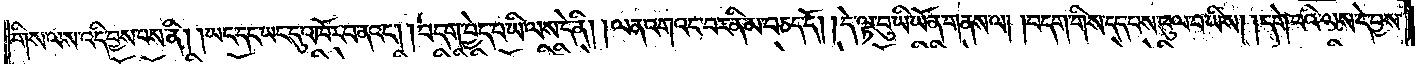གིས་ལས་འདི་བྱས་པས་ནི། །ཡང་དང་ཡང་དུ་འཁོར་བ་ནའང༌། །བདག་བྱེད་པ་ཡི་ལས་དེ་ནི། །ལན་འགའང་བར་ནི་མ་བཅད་དོ། །དེ་ལྟ་བུ་ཡི་ཡོན་གནས་ལ། །བདག་གིས་དད་པས་ཕུལ་བ་ཡིས། །དགེ་བའི་ལས་དེ་བྱས་
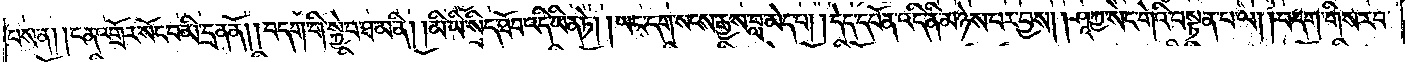པས་ན། །ངན་འགྲོར་སོང་བ་མི་དྲན་ནོ། །བདག་གི་སྐྱེ་བ་ཐ་མ་ནི། །མི་ཡི་སྲིད་ཐོབ་འདི་ཡིན་ཏེ། །ཡང་དག་སངས་རྒྱས་བླ་མེད་པ། །དེད་དཔོན་འདི་ནི་མཉེས་པར་བྱས། །ཤཱཀྱ་སེང་གེའི་བསྟན་པ་ལ། །བདག་གིས་རབ་
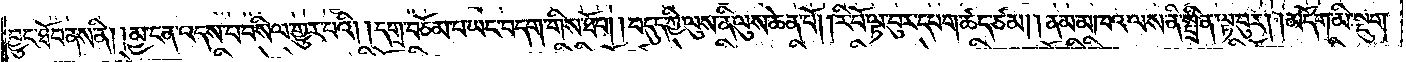བྱུང་ཐོབ་ནས་ནི། །མྱ་ངན་འདས་པ་བསིལ་གྱུར་པའི། །དགྲ་བཅོམ་པ་ཡང་བདག་གིས་ཐོབ། །བདུད་ཀྱི་ལུས་ནི་ལུས་ཆེན་པོ། །རི་བོ་ལྟ་བུར་དཔག་ཚད་ཙམ། །ནམ་མཁའ་ལས་ནི་སྤྲིན་ལྟ་བུར། །མདོག་མི་སྡུག་
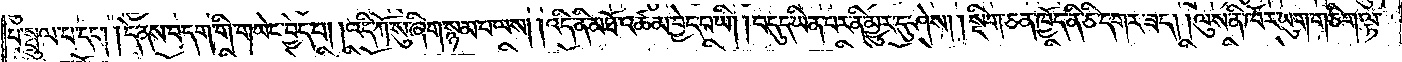པ་སྤྲུལ་པ་དང༌། །དེ་ནས་བདག་གི་གཡེང་བྱེད་པ། །འདི་ཀོ་སུ་ཞིག་སྙམ་པ་ལས། །འདི་ནི་མཐོ་འཚམ་བྱེད་པ་ཡི། །བདུད་ཡིན་པར་ནི་མྱུར་དུ་ཤེས། །སྡིག་ཅན་ཁྱོད་ནི་ཅི་དགར་ཟད། །ལུས་ནི་ཁོར་ཡུག་གཅིག་ལྟ་
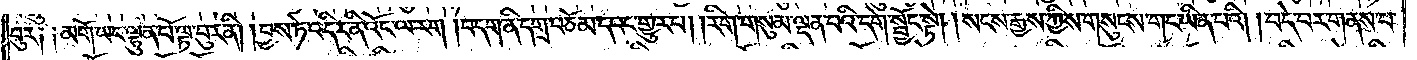བུར། །མགོ་ཡང་ལྷུན་པོ་ལྟ་བུར་ནི། །བྱས་ཏེ་འདིར་ནི་འོང་ལ་རག །བདག་ནི་དགྲ་བཅོམ་དབང་གྱུར་པ། །རིག་གསུམ་ལྡན་པའི་དགེ་སྦྱོང་སྟེ། །སངས་རྒྱས་ཀྱིས་གསུངས་གང་ཡིན་པའི། །བདེ་བར་གནས་པ་
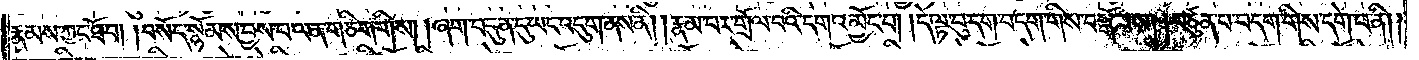རྣམས་ཀྱང་ཐོབ། །བསོད་སྙོམས་བྱས་པ་ལན་གཅིག་གིས། །ཞག་བདུན་དུ་ཡང་འདུག་ནས་ནི། །རྣམ་པར་གྲོལ་བའི་དགའ་མྱོང་བ། །དེ་ལྟ་བུ་དག་བདག་གིས་བསྒོམས། །བཙུན་པ་བདག་གིས་དགེ་བ་ནི། །
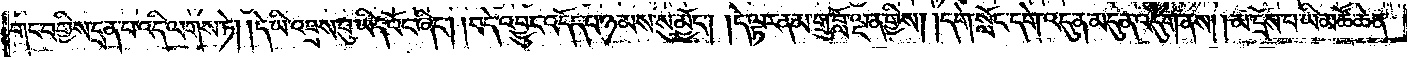གང་བགྱིས་དྲན་པ་འདི་ལགས་ཏེ། །དེ་ཡི་འབྲས་བུ་ཡིད་འོང་ཞིང༌། །བདེ་འབྱུང་འདོད་པ་ཉམས་སུ་མྱོང༌། །དེ་ལྟར་ནམ་གྲུ་བློ་ལྡན་གྱིས། །དགེ་སློང་དགེ་འདུན་མདུན་འདུག་ནས། །མ་དྲོས་པ་ཡི་མཚོ་ཆེན་
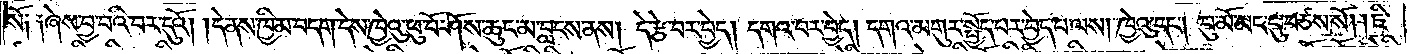སོ༑ ༑ཞེས་བྱ་བའི་བར་དུའོ། །དེ་ནས་ཁྱིམ་བདག་དེས་ཁྱེའུ་ཕུ་བོ་ཤོས་ཆུང་མ་བླངས་ནས། དེ་རྩེ་བར་བྱེད། དགའ་བར་བྱེད། དགའ་མགུར་སྤྱོད་པར་བྱེད་པ་ལས། ཁྱེའུ་དང༌། བུ་མོ་མང་དུ་བཙས་སོ། །ཇི་
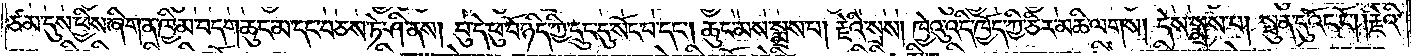ཙམ་དུས་ཕྱིས་ཞིག་ན་ཁྱིམ་བདག་ཆུང་མ་དང་བཅས་ཏེ་ཤི་ནས། བུ་དེ་ཕུ་བོ་ཉིད་ཀྱི་དྲུང་དུ་སོང་བ་དང༌། ཆུང་མས་སྨྲས་པ། རྗེའི་སྲས། ཁྱེའུ་འདི་ཁྱོད་ཀྱི་ཅིར་མཆི་ལགས། དེས་སྨྲས་པ། སྤུན་དུ་འོང་ངོ༌། །རྗེའི་
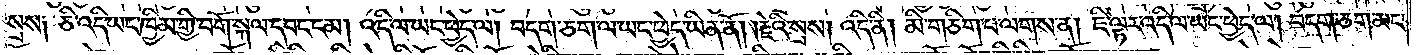སྲས༑ ཅི་འདི་ཡང་ཁྱིམ་གྱི་བགོ་སྐལ་དབང་ངམ། འདི་ལ་ཡང་ཕྱེད་ལ། བདག་ཅག་ལ་ཡང་ཕྱེད་ཡིན་ནོ། །རྗེའི་སྲས། འདི་ནི། མི་གཅིག་པ་ལགས་ན། ཇི་ལྟར་འདི་ལ་ཡང་ཕྱེད་ལ། བདག་ཅག་མང་
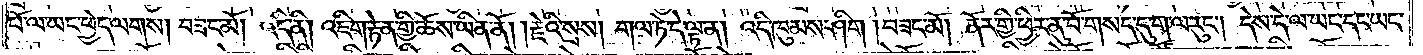པོ་ལ་ཡང་ཕྱེད་ལགས། བཟང་མོ། འདི་ནི། འཇིག་རྟེན་གྱི་ཆོས་ཡིན་ནོ། །རྗེའི་སྲས། གལ་ཏེ་དེ་ལྟ་ན། འདི་ཁུམས་ཤིག །བཟང་མོ། ནོར་གྱི་ཕྱིར་ནུ་བོ་གསད་དུ་ག་ལ་རུང༌། དེས་དེ་ལ་ཡང་དང་ཡང་
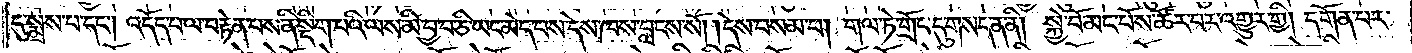དུ་སྨྲས་པ་དང༌། འདོད་པ་ལ་བརྟེན་པས་ནི་སྡིག་པའི་ལས་མི་བྱ་བ་ཅི་ཡང་མེད་པས་དེས་ཁང་བླངས་སོ། །དེས་བསམ་པ། གལ་ཏེ་གྲོང་དུ་གསད་ན་ནི། སྐྱེ་བོ་མང་པོས་ཚོར་བར་འགྱུར་གྱི། དགོན་པར་
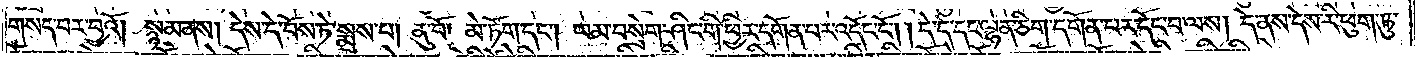གསད་བར་བྱའོ། སྙམ་ནས། དེས་དེ་བོས་ཏེ་སྨྲས་པ། ནུ་བོ། མེ་ཏོག་དང༌། ཡམ་བསྲེག་ཤིང་གི་ཕྱིར་དགོན་པར་འདོང་ངོ༌། །དེ་དེ་དང་ལྷན་ཅིག་དགོན་པར་དོང་བ་ལས། དེ་ནས་དེས་རི་ཕུག་ཏུ་
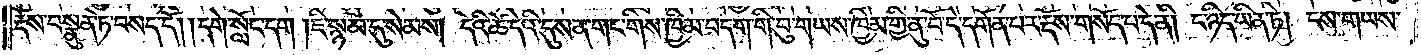རྡོས་བསྣུན་ཏེ་བསད་དོ། །དགེ་སློང་དག །ཇི་སྙམ་དུ་སེམས། དེའི་ཚེ་དེའི་དུས་ན་གང་གིས་ཁྱིམ་བདག་གི་བུ་གཡས་ཁྱིམ་གྱི་ནུ་བོ་དེ་དགོན་པར་རྡོས་གསོད་པ་དེ་ནི། ང་ཉིད་ཡིན་ཏེ། ངས་གཡས་
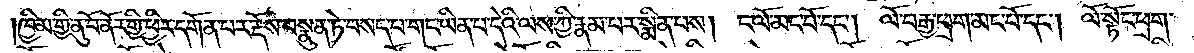ཁྱིམ་གྱི་ནུ་བོ་ནོར་གྱི་ཕྱིར་དགོན་པར་རྡོས་བསྣུན་ཏེ་བསད་པ་གང་ཡིན་པ་དེའི་ལས་ཀྱི་རྣམ་པར་སྨིན་པས། ང་ལོ་མང་པོ་དང༌། ལོ་བརྒྱ་ཕྲག་མང་པོ་དང༌། ལོ་སྟོང་ཕྲག་
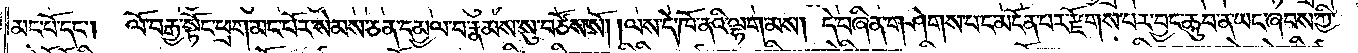མང་པོ་དང༌། ལོ་བརྒྱ་སྟོང་ཕྲག་མང་པོར་སེམས་ཅན་དམྱལ་བ་རྣམས་སུ་བཙོས་སོ། །ལས་དེ་ཁོ་ནའི་ལྷག་མས། དེ་བཞིན་གཤེགས་པ་ང་མངོན་པར་རྫོགས་པར་བྱང་ཆུབ་ན་ཡང་ཞབས་ཀྱི་
